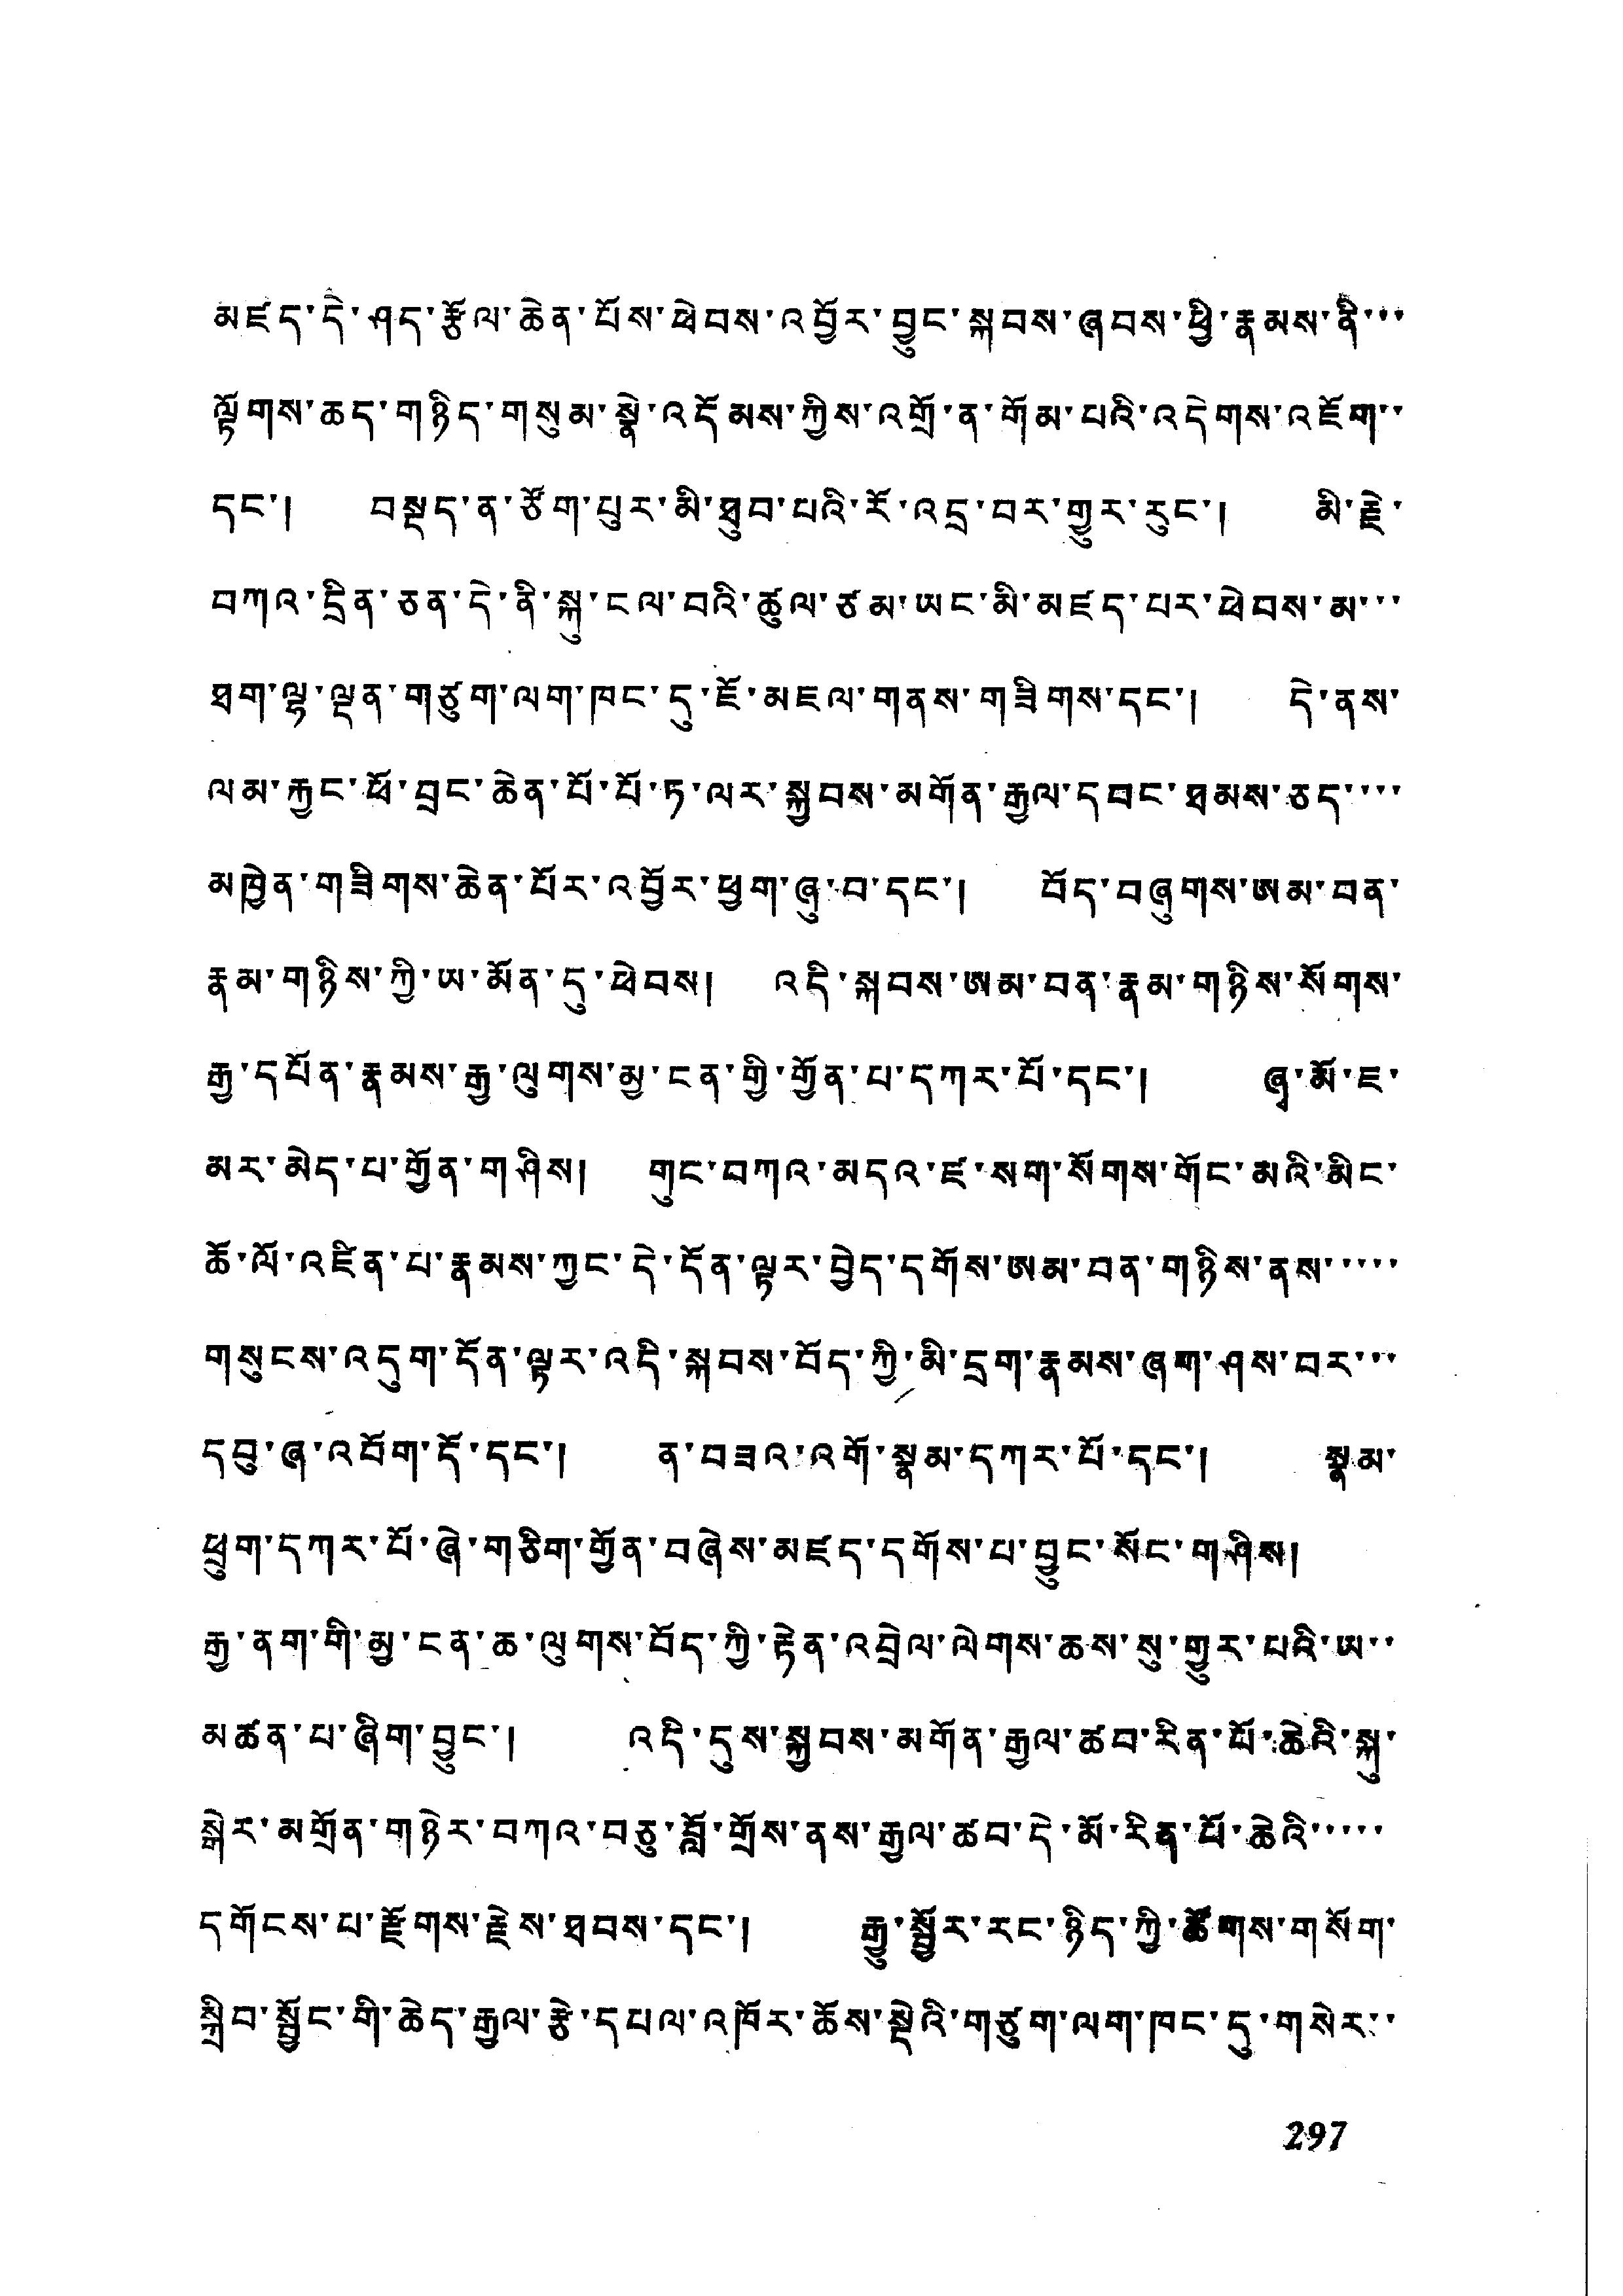མཛད་དེ་ཤད་རྩོལ་ཆེན་པོས་ཕེབས་འབྱོར་བྱུང་སྐབས་ཞབས་ཕྱི་རྣམས་ནི་་་
ལྟོགས་ཆད་གཉིད་གསུམ་སྣེ་འདོམས་ཀྱིས་འགྲོ་ན་གོམ་པའི་འདེགས་འཇོག་་
དང་། བསྡད་ན་ཙོག་པུར་མི་ཐུབ་པའི་རོ་འདྲ་བར་གྱུར་རུང་། མི་རྗེ་
བཀའ་དྲིན་ཅན་དེ་ནི་སྐུ་ངལ་བའི་ཚུལ་ཙམ་ཡང་མི་མཛད་པར་ཕེབས་མ་་་
ཐག་ལྷ་ལྡན་གཙུག་ལག་ཁང་དུ་ཇོ་མཇལ་གནས་གཟིགས་དང་། དེ་ནས་
ལམ་རྐྱང་ཕོ་བྲང་ཆེན་པོ་པོ་ཏ་ལར་སྐྱབས་མགོན་རྒྱལ་དབང་ཐམས་ཅད་་་་
མཁྱེན་གཟིགས་ཆེན་པོར་འབྱོར་ཕྱག་ཞུ་བ་དང་། བོད་བཞུགས་ཨམ་བན་
རྣམ་གཉིས་ཀྱི་ཡ་མོན་དུ་ཕེབས། འདི་སྐབས་ཨམ་བན་རྣམ་གཉིས་སོགས་
རྒྱ་དཔོན་རྣམས་རྒྱ་ལུགས་མྱ་ངན་གྱི་གྱོན་པ་དཀར་པོ་དང་། ཞྭ་མོ་ཇ་
མར་མེད་པ་གྱོན་གཤིས། གུང་བཀའ་མདའ་ཛ་སག་སོགས་གོང་མའི་མིང་
ཆོ་ལོ་འཛིན་པ་རྣམས་ཀྱང་དེ་དོན་ལྟར་བྱེད་དགོས་ཨམ་བན་གཉིས་ནས་་་་་
གསུངས་འདུག་དོན་ལྟར་འདི་སྐབས་བོད་ཀྱི་མི་དྲག་རྣམས་ཞག་ཤས་བར་་་
དབུ་ཞ་འབོག་དོ་དང་། ན་བཟའ་འགོ་སྣམ་དཀར་པོ་དང་། སྣམ་
ཕྲུག་དཀར་པོ་ཞེ་གཅིག་གྱོན་བཞེས་མཛད་དགོས་པ་བྱུང་སོང་གཤིས།
རྒྱ་ནག་གི་མྱ་ངན་ཆ་ལུགས་བོད་ཀྱི་རྟེན་འབྲེལ་ལེགས་ཆས་སུ་གྱུར་པའི་ཡ་་
མཚན་པ་ཞིག་བྱུང་། འདི་དུས་སྐྱབས་མགོན་རྒྱལ་ཚབ་རིན་པོ་ཆེའི་སྐུ་
སྒེར་མགྲོན་གཉེར་བཀའ་བཅུ་བློ་གྲོས་ནས་རྒྱལ་ཚབ་དེ་མོ་རིན་པོ་ཆེའི་་་་་
དགོངས་པ་རྫོགས་རྗེས་ཐབས་དང་། རྒྱུ་སྦྱོར་རང་ཉིད་ཀྱི་ཚོགས་གསོག་
སྒྲིབ་སྦྱོང་གི་ཆེད་རྒྱལ་རྩེ་དཔལ་འཁོར་ཆོས་སྡེའི་གཙུག་ལག་ཁང་དུ་གསེར་་
297
